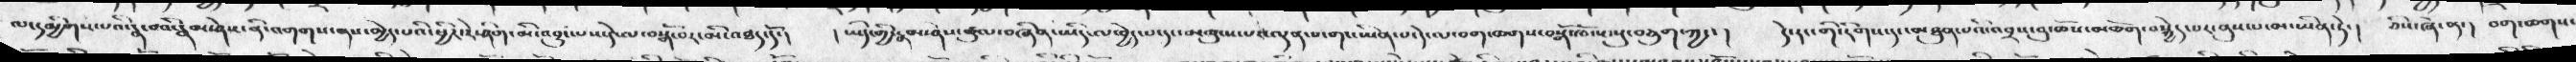ལ་དམྱིགས་པའི་རྣ་བའི་རྣམ་ཤེས་ནི་འགགས་ནས་མྱེད་པའི་ཕྱིར་རེ་ཤིག་མི་འབྱུང་པས་དེ་ལ་བསྒོ་བར་མི་འཐད་དོ་།   ། ཡིད་གྱི་རྣམ་ཤེས་ཚུལ་བཞིན་ཡིད་ལ་བྱེད་པ་དང་མཚུངས་པར་ལྡན་པ་གང་ཡིན་པ་དེ་ལ་བག་ཆགས་བསྒོ་ཁོངས་སུ་བཅུག་ཀྱང་།    དེ་རང་གི་རིགས་དང་མཐུན་པའི་འབྲས་བུ་ཆོས་མཆོག་བསྐྱེད་པར་ནུས་པ་མ་ཡིན་ཏེ་།  ཅིས་ཞེ་ན་།  བག་ཆགས་
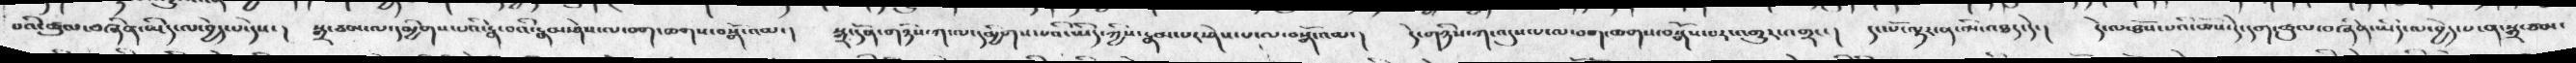པའི་ཚུལ་བཞིན་ཡིད་ལ་བྱེད་པ་དེས་།   སྒྲ་ཙམ་ལ་དམྱིགས་པའི་རྣ་བའི་རྣམ་ཤེས་ལ་བག་ཆགས་བསྒོ་འམ་།   སྒྲ་དོན་གཉིས་ཀ་ལ་དམྱིགས་པའི་ཡིད་ཀྱིས་རྣམ་པར་ཤེས་པ་ལ་བསྒོ་འམ་།   དེ་གཉིས་ག་འདུས་པ་ལ་བག་ཆགས་བསྒོས་པར་འགྱུར་འགྲང་།  དང་པོ་ལྟར་ན་མི་འཐད་དེ་།   དེ་ལ་ཐོས་པའི་ཆོས་དེ་དག་ཚུལ་བཞིན་ཡིད་ལ་བྱེད་པ་ན་སྒྲ་ཐམ་
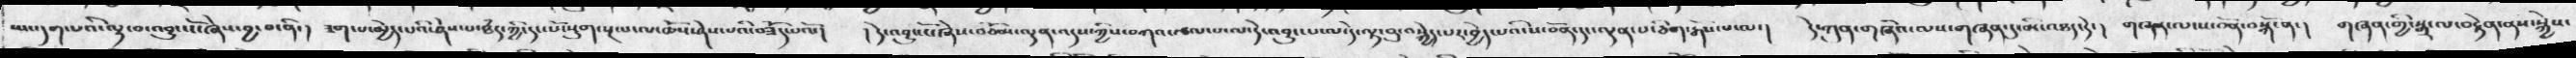ཡང་དག་པའི་ལྟ་བ་འབྱུང་ངོ་ཞེས་བྱ་བ་ནི་།   ཟག་པ་མྱེད་པའི་ཤེས་པ་ཐཾད་ཀྱི་དང་པོ་སྡུག་སྔལ་ལ་ཆོས་ཤེས་པའི་བཟོད་པའོ་།  ། དེ་འབྱུང་ངོ་ཞེས་བཅོམ་ལྡན་འདས་ཀྱིས་བཀའ་རྩལ་པ་ལ་དེ་འབྱུང་པ་ལ་དེ་ལྟ་བུ་བསྐྱེད་པར་བྱེད་པའི་ས་བོན་དང་ལྡན་པ་ཅིག་རྒོས་པ་ལ་།   དེ་ཀུན་གཞིའ་ལས་གཞན་དུ་མི་འཐད་དེ་།   གཞན་ལ་ས་བོན་བསྐོ་ན་།   གཞན་གྱི་སྒྲ་ལ་བརྟེན་ནས་སྐྱེས་
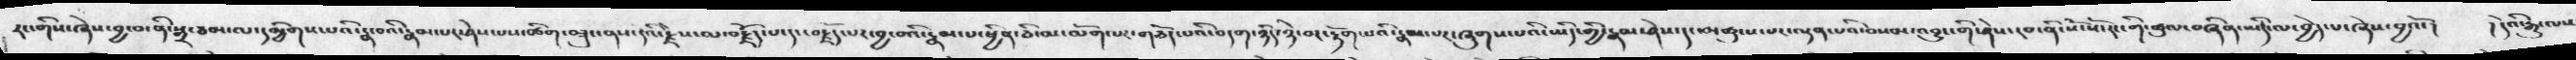རང་གིས་ཞེས་བྱ་བ་ནི་སྒྲ་ཙམ་ལ་དམྱིགས་པའི་རྣ་བའི་རྣམ་པར་ཤེས་པས་ཚིག་བཟུང་ནས་དེའི་རྗེས་མ་བརྗོད་པ་དང་བརྗོད་པར་བྱ་བའི་རྣམ་པ་ཕྱིན་ཅི་མ་ལོག་པར་གཅོད་པའི་བདག་ཉིད་ཉེ་བར་རྟོག་པའི་རྣམ་པར་ཞུགས་པའི་ཡིད་གྱི་རྣམ་ཤེས་དང་མཚུངས་པར་ལྡན་པའི་བསམ་འབྱུང་གི་ཤེས་རབ་ནི་སོ་སོ་རང་གི་ཚུལ་བཞིན་ཡིད་ལ་བྱེད་པ་ཞེས་བྱའོ་།   ། དེའི་རྒྱུ་ལས
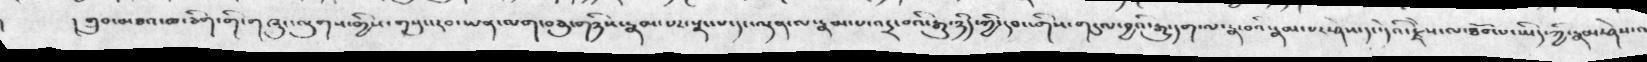། གྲུབ་མཐའ་ཁ་ཅིག་གི་གཞུང་ལུགས་གྱིས་གསུང་རབ་ཡན་ལག་བཅུ་གཉིས་རྣམ་པར་སྣང་པ་དང་ལྡན་ལ་རྣམ་པ་འདྲ་བའི་རྒྱུ་ཉིད་ཀྱི་དབང་གིས་གདུལ་བྱའི་རྒྱུ་དག་ལ་རྣ་བའི་རྣམ་པར་ཤེས་དང་དེའི་རྗེས་ལ་ཐོབ་པ་ཡིད་ཀྱི་རྣམ་ཤེས་འ
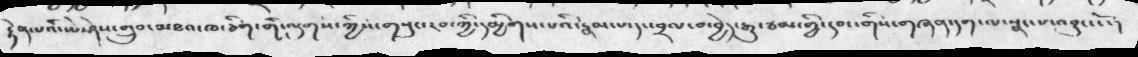རྟེན་པའི་ཡེ་ཤེས་གྲུབ་མཐའ་ཁ་ཅིག་གི་ལུགས་ཀྱིས་གསུང་རབ་ཀྱི་དམྱིགས་པའི་རྣམ་པ་དང་བྲལ་བ་བྱེད་རྒྱུ་ཙམ་གྱི་དབང་གིས་གཞན་དག་ལ་སྣང་པ་འབྱུང་ངོ་།
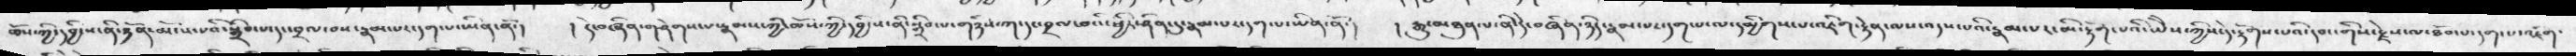ཆོས་ཀྱི་དབྱིངས་ནི་ཉོན་མོངས་པའི་སྒྲིབ་པ་དང་བྲལ་བས་རྣམ་པར་དག་པ་ཡིན་ནོ་།  ། དེ་བཞིན་གཤེགས་པ་རྣམས་ཀྱི་ཆོས་ཀྱི་དབྱིངས་ནི་སྒྲིབ་པ་གཉིས་ཀ་དང་བྲལ་བའི་ཕྱིར་ཤིན་དུ་རྣམ་པར་དག་པ་ཡིན་ནོ་།  ། རྒྱུ་མཐུན་པ་ནི་དེ་བཞིན་ཉིད་རྣམ་པར་དག་པ་ལ་དམྱིགས་པ་འཇིག་རྟེན་ལས་འདས་པའི་རྣམ་པར་མི་རྟོག་པའི་ཡེེས་ཀྱིས་དེ་རྟོགས་པའི་དབང་གིས་རྗེས་ལ་ཐོབ་པ་དག་པ་འཇོག་
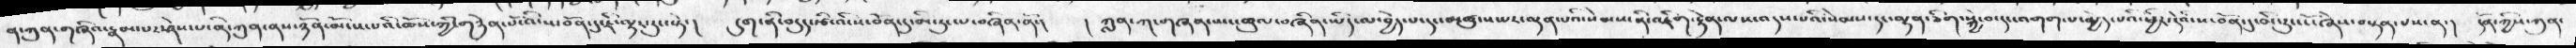ན་ཀུན་གཞིའ་རྣམ་པར་ཤེས་པ་ནས་ཀུན་ནས་ཉོན་མོངས་པའི་ཆོས་ཀྱི་གཉེན་པོ་འི་ས་བོན་དུ་ཇི་ལྟར་རུང་སྟེ་།   དུག་ནི་བདུད་རྩི་འི་ས་བོན་དུ་མི་རུང་པ་བཞིན་ནོ་།   ། ཀླན་ཀ་གཞན་ཡང་ཚུལ་བཞིན་ཡིད་ལ་བྱེད་པ་དང་མཚུངས་པར་ལྡན་པའི་སེམས་ནི་འཇིག་རྟེན་ལས་འདས་པའི་སེམས་དང་ལྷན་ཅིག་སྐྱེ་བ་དང་འགག་པ་མྱེད་པའི་ཕྱིར་དེའི་ས་བོན་དུ་མི་རུང་ངོ་ཞེས་བསྟན་པས་ན་།   དོན་ཀྱིས་ཀུན་
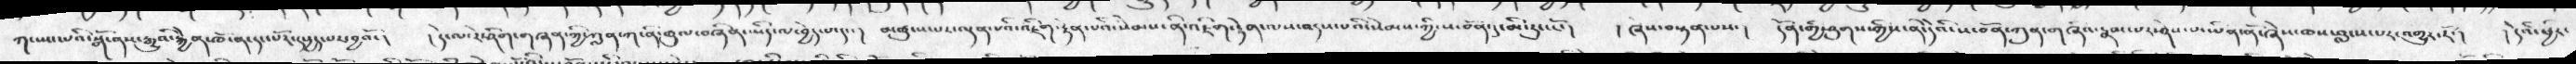ཀ་ཡང་པའི་སྒོ་ནས་རྒྱུའི་རྐྱེན་ཁོ་ན་དང་པོར་དཔྱད་པར་བྱའོ་།  ། དེ་ལ་རེ་ཤིག་གཞན་ཀྱི་ཀླན་་ཀ་ནི་ཚུལ་བཞིན་ཡིད་ལ་བྱེད་པ་དང་།  མཚུངས་པར་ལྡན་པའི་འཇིག་རྟེན་པའི་སེམས་ནི་འཇིག་རྟེན་ལས་འདས་པའི་སེམས་ཀྱི་ས་བོན་དུ་མི་རུང་ངོ་།  ། ཞེས་བསྟན་པས་།   དོན་གྱི་ཤུགས་ཀྱིས་ནི་དེའི་ས་བོན་ཀུན་གཞིའ་རྣམ་པར་ཤེས་པ་ཡིན་ནོ་ཞེས་ཁས་བླངས་པར་འགྱུར་རོ་།    ། དེའི་ཕྱིར་
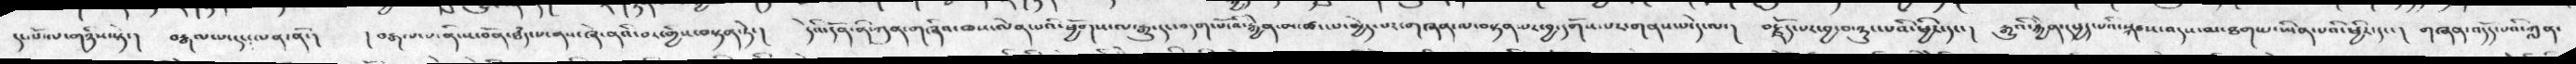དང་པོ་ལ་གཉིས་སྟེ་།  བརྒལ་པ་དང་ལན་ནོ་།  ། བརྒལ་པ་ནི་ས་བོན་ཐཾད་པ་ནས་ཞེ་ནའི་བར་གྱིས་བསྟན་ཏེ་།   དེའི་དོན་ནི་ཀུན་གཞིའ་ཁས་ལེན་པའི་ཕྱོགས་ལ་རྒྱུ་དང་བདག་པོ་འི་རྐྱེན་མ་ཚང་པ་མྱེད་པ་གཞན་ལ་བསྟན་པར་བྱ་དགོས་པར་གནས་པ་དེ་ལ་།  བརྗོད་པར་བྱ་བ་ཉུང་པའི་ཕྱིར་དང་།   རྒྱུའི་རྐྱེན་དཔྱད་པའི་སྐབས་འདས་མ་ཐག་པ་ཡིན་པའི་ཕྱིར་དང་།  གཞན་འདོད་པའི་ཀླན་
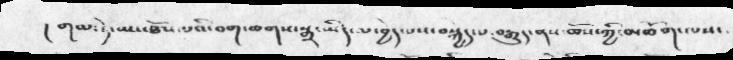། གལ་ཏེ་ཡང་ཐོས་པའི་བག་ཆགས་སྒྲ་ཡིད་ལ་བྱེད་པས་བསྐྱེད་པ་བརྒྱུད་ནས་ཆོས་ཀྱི་མཆོག་ལས་
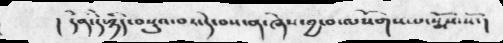ད དེན་དེ་ཉིད་བསྡུའ་བར་དེ་བས་ན་ཞེས་བྱ་བ་ལསོགས་པ་སྨོས་སོ་།
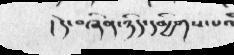། དེ་བཞིན་ཉིད་དམྱིགས་པའི
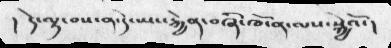།    དེ་ལྟ་བས་ན་དེ་ཡང་རྐྱེན་བཞི་ཁོ་ན་ལས་སྐྱེའོ་།
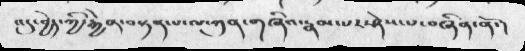འདུ་བྱེད་ཀྱི་རྐྱེན་བསྟན་པ་ལ་ཀུན་གཞིའ་རྣམ་པར་ཤེས་པ་བཞིན་ནོ་།
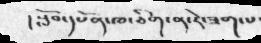།  སློབ་དཔོན་ཁ་ཅིག་ན་རེ་ཟག་པ་
